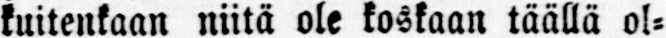kuitenkaan niitä ole koskaan täällä ol-
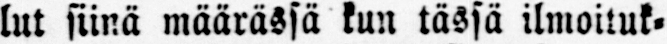lut siinä määrässä kun tässä ilmoituk-
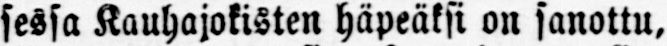sessa Kauhajokisten häpeäksi on sanottu,
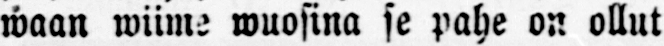waan wiime wuosina se pahe on ollut
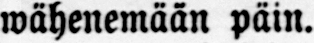wähenemään päin.
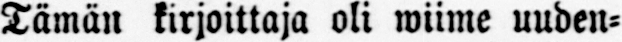Tämän kirjoittaja oli wiime uuden-
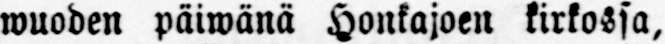wuoden päiwänä Honkajoen kirkossa,
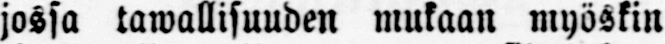jossa tawallisuuden mukaan myöskin
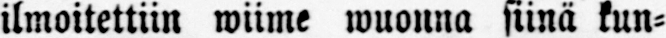ilmoitettiin wiime wuonna siinä kun-
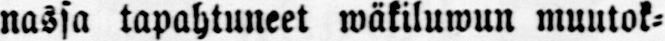nassa tapahtuneet wäkiluwun muutok-
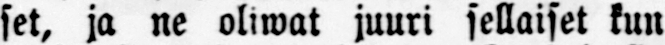set, ja ne oliwat juuri sellaiset kun
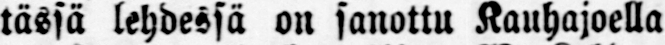tässä lehdessä on sanottu Kauhajoella
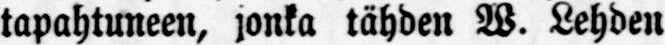tapahtuneen, jonka tähden W. Lehden
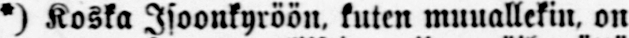*) Koska Isoonkyröön, kuten muuallekin, on
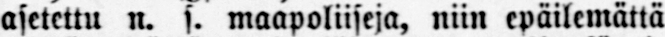asetettu n. s. maapoliiseja, niin epäilemättä
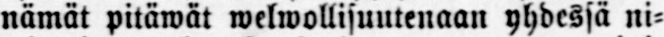nämät pitäwät welwollisuutenaan yhdessä ni-
